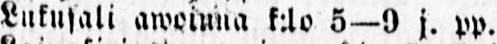Lukusali awoinna k:lo 5—9 j. pp.
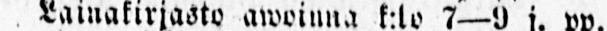Lainakirjasto awoinna k:lo 7—9 j. pp.
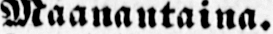Maanantaina.
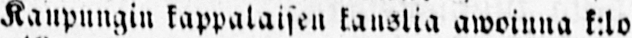Kaupungin kappalaisin kanslia awoinna k:lo
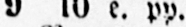9 10 e. pp.
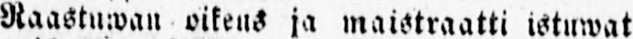Raastuwan oikeus ja maistraatti istuwat
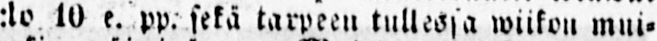:lo 10 e. pp. sekä tarpeen tullessa wiikon mui-
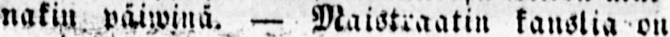nakin päiwinä. — Maistraatin kanslia on
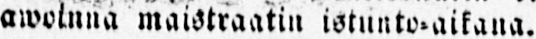awoinna maistraatin istunto-aikana.
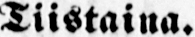Tiistaina.
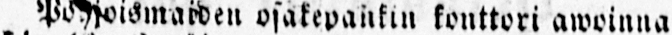Pohjoismaiden osakepankin konttori awoinna
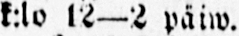k:lo 12—2 päiw.
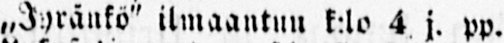„Jyränkö" ilmaantuu k:lo 4 j. pp.
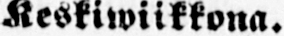Keskiwiikkona.
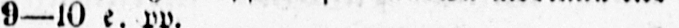Kaupungin kappalaisen kanslia awoinna k:lo
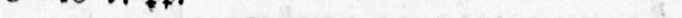9—10 e. w.
